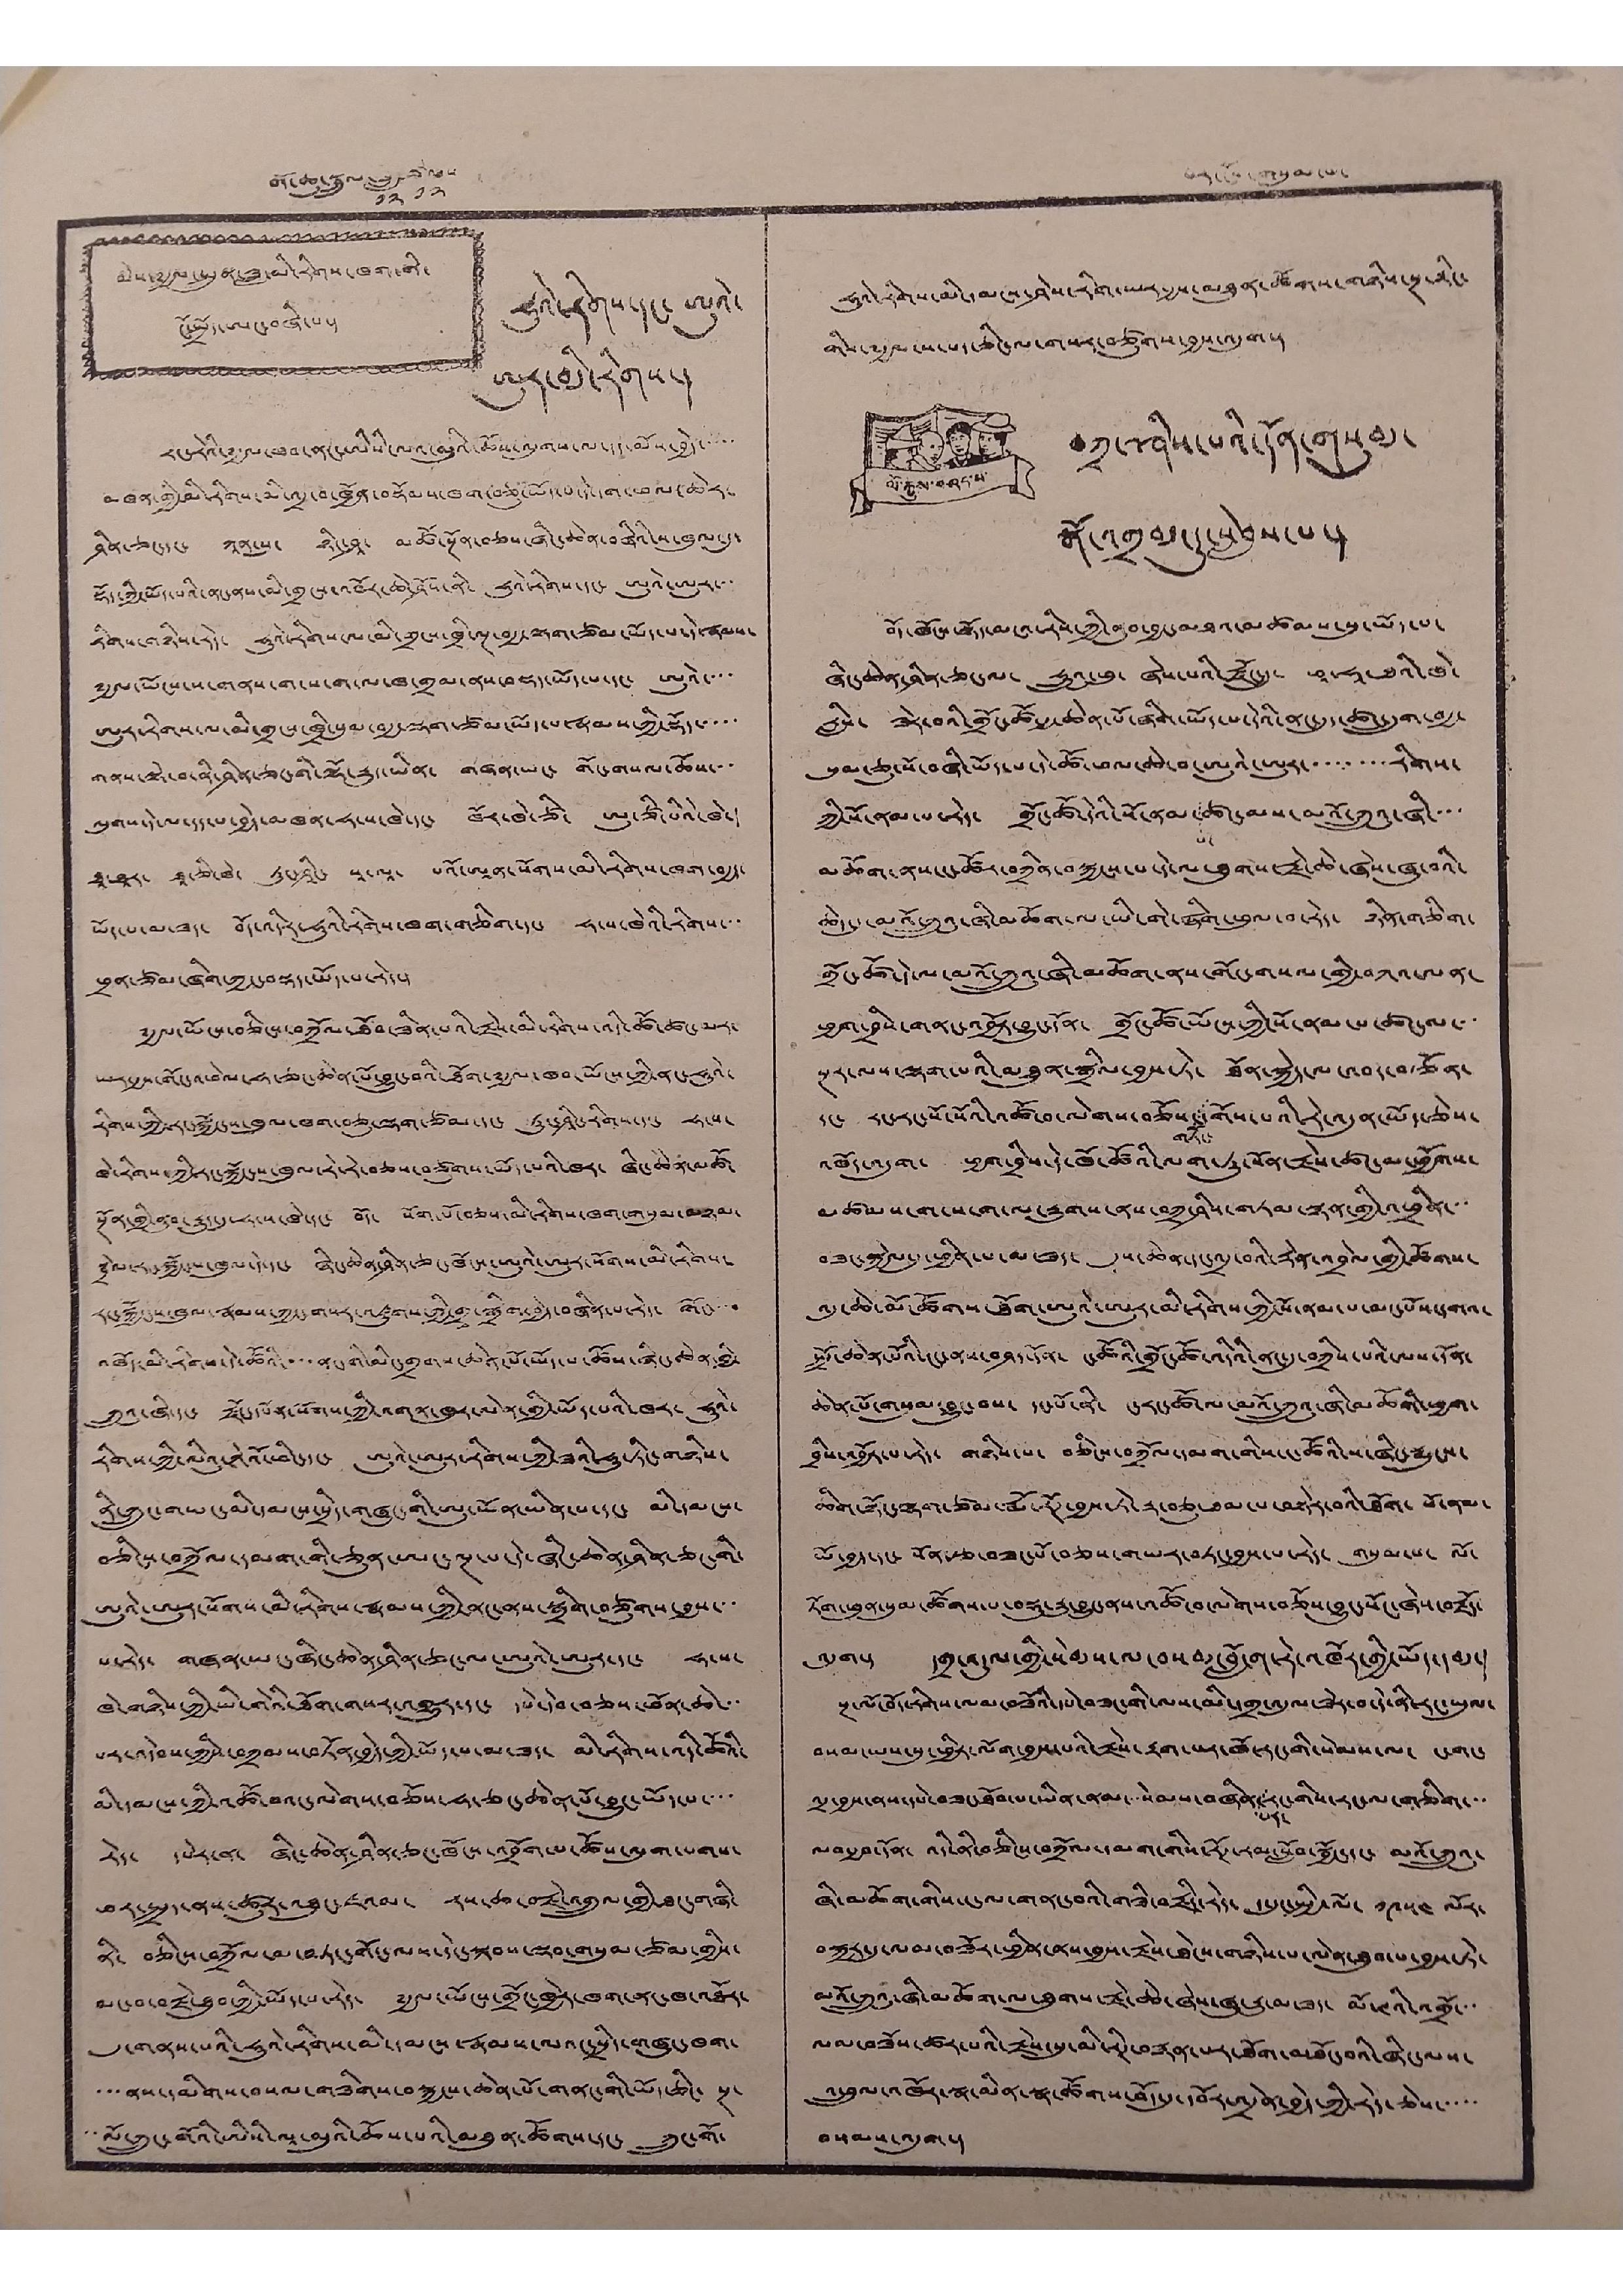བོད་ཆུ་སྦྲུལ་ཟླ་
༡༢
ཚེས་
༡༢
ལ་
པར་ངོས་གསུམ་པ་
མེས་༸རྒྱལ་སྤུན་ཟླ་མི་རིགས་ཁག་གི་
ངོ་སྤྲོད་ཨང་བཞི་པ།
ཧུའེ་རིགས་དང་ ཨུའེ་
ཨུར་མི་རིགས་།
རང་རེའི་༸རྒྱལ་ཁབ་ནང་ཨིསི་ལའ་མུའི་ཆོས་ལུགས་ལ་དད་མོས་བྱེད་་་་་
མཁན་གྱི་མི་རིགས་མི་འདྲ་བ་ཁྱོན་བསྡོམས་ཁག་བཅུ་ཡོད་པ་དེ་དག་ཕལ་ཆེར་
ཤིན་ཅང་དང་ ཀཱན་སུ་ ཉིང་ཤཱ་ མཚོ་སྔོན་བཅས་ཞིང་ཆེན་བཞིའི་ས་ཁུལ་དུ་
སྡོད་ཀྱི་ཡོད་པའི་ནང་ནས་མི་གྲངས་འཁོར་ཆེ་ཤོས་ནི་ ཧུའེ་རིགས་དང་ ཨུའེ་ཨུར་་
རིགས་གཉིས་རེད་ ཧུའེརིགས་ལ་མི་གྲངས་ཁྲི་ལྔ་བརྒྱ་ལྷག་ཙམ་ཡོད་པ་དེ་རྣམས་
༸རྒྱལ་ཡོངས་ས་གནས་ག་ས་ག་ལ་ཁ་གྲལ་ནས་བསྡད་ཡོད་པ་དང་ ཨུའེ་་་་
ཨུར་རིགས་ལ་མི་གྲངས་ཁྲི་སུམ་བརྒྱ་ལྷག་ཙམ་ཡོད་པ་རྣམས་ཀྱི་སྡོད་་་་་
གནས་ལྟེ་བ་ནི་ཤིན་ཅང་གི་ལྷོ་རྒྱུད་ཡིན་ གཞན་ཡང་ གོང་གསལ་ཆོས་་་
ལུགས་དེ་ལ་དད་པ་བྱེད་མཁན་ཧ་ས་ཁེ་དང་ ཁོར་ཁེ་ཙེ་ ཨུ་ཙི་པིའི་ཁེ་
ཐཱ་ཐཱར་ ཐཱ་ཅི་ཁེ་ ཏུང་ཤིང་ སཱ་ལཱ་ པའོ་ཨཱན་སོགས་མི་རིགས་ཁག་བརྒྱད་
ཡོད་པ་མ་ཟད་ བོད་འདིར་ཧུའི་རིགས་ཁག་གཅིག་དང་ ཧ་ས་ཁེའི་རིགས་་་
ཕྲན་ཙམ་ཞིག་ཀྱང་བསྡད་ཡོད་པ་རེད་།
༸རྒྱལ་ཡོངས་བཅིངས་བཀྲོལ་ཐོབ་ཟིན་པའི་རྗེས་མི་རིགས་འདི་ཚོ་ཚང་མར་
ཡར་རྒྱས་གོང་འཕེལ་ཧ་ཅང་ཆེན་པོ་བྱུང་བའི་ཐོག་༸རྒྱལ་ཁབ་ཡོངས་ཀྱི་ནང་ཧུའེ་
རིགས་ཀྱི་རང་སྐྱོངས་ཁུལ་ཁག་བཅུ་ལྷག་ཙམ་དང་ ཏུང་ཤིང་རིགས་དང་ ཧ་ས་
ཁེ་རིགས་ཀྱི་རང་སྐྱོང་ས་ཁུལ་རེ་རེ་བཅས་བཙུགས་ཡོད་པའི་ཁར་ ཞིང་ཆེན་མཚོ་
སྔོན་གྱི་ནུབ་རྒྱུད་དུ་ཧ་ས་ཁེ་དང་ བོད་ སོག་པོ་བཅས་མི་རིགས་ཁག་གསུམ་མཉམ་
སྦྲེལ་རང་སྐྱོང་ས་ཁུལ་དེ་དང་ ཞིང་ཆེན་ཤིན་ཅང་ཁོངས་ཨུའེ་ཨུར་སོགས་མི་རིགས་
རང་སྐྱོང་ས་ཁུལ་རྣམས་ཀྱང་གསར་འཛུགས་ཀྱི་གྲྭ་སྒྲིག་བྱེད་བཞིན་པ་རེད་ གོང་་་་
འཁོད་མི་རིགས་དེ་ཚོའི་་་ནང་གི་མིང་གྲགས་ཆེན་པོ་ཡོད་པ་ཚོས་ཞིང་ཆེན་གྱི་
ཀྲུའུ་ཞི་དང་ རྫོང་དཔོན་སོགས་ཀྱི་འགན་ཁུར་ལེན་གྱི་ཡོད་པའི་ཁར་ ཧུའེ་
རིགས་ཀྱི་ལིའུ་ཀེའོ་ཕིང་དང་ ཨུའེ་ཨུར་རིགས་ཀྱི་ཟའི་ཧུ་ཏིང་གཉིས་
ནི་ཀྲུང་གཡང་མི་དམངས་སྲིད་གཞུང་གི་ཨུ་ཡོན་ཡིན་པ་དང་ མི་དམངས་
བཅིངས་བཀྲོལ་དམག་གི་ཅུན་ཨང་ལྔ་པ་དེ་ཞིང་ཆེན་ཤིན་ཅང་གི་
ཨུའེ་ཨུར་སོགས་མི་རིགས་རྣམས་ཀྱི་ནང་ནས་སྒྲིག་བཙུགས་བྱས་་་
པ་རེད་། གཞན་ཡང་ཞིང་ཆེན་ཤིནན་ཅང་ལ་ཨུའེ་ཨུར་དང་ ཧ་ས་
ཁེ་གཉིས་ཀྱི་ཡི་གེའེ་ཐོག་གསར་འགྱུར་དང་ དཔེ་དེབ་བཅས་ཕོན་ཆེ་་་
པར་འདེབས་ཀྱིས་བཀྲམས་བཏོན་བྱེད་ཀྱི་ཡོད་པ་མ་ཟད་ མི་རིགས་འདི་ཚོའི་
མི་དམངས་ཀྱི་འཚོ་བའང་ལེགས་བཅོས་ཧ་ཅང་ཆེན་པོ་བྱུང་ཡོད་པ་་་་
རེད། དཔེར་ན་ ཞིང་ཆེན་ཤིན་ཅང་ཁོངས་འབྲོག་པ་ཚོས་ལུག་པགས་
ཕར་སྤྲད་ནས་ཚུར་འཐུང་ཇའམ་ རས་ཆ་བརྗེ་འགྲུལ་གྱི་ཐང་གཞི་
ནི་ བཅིངས་བཀྲོལ་མ་བཏང་གོང་ལས་དེང་སྐབས་ལྡབ་གསུམ་ཙམ་གྱིས་
མང་བ་བརྗེ་ཐུབ་ཀྱི་ཡོད་པ་རེད་ ༸རྒྱལ་ཡོངས་གྲོང་ཁྱེར་ཁག་ནང་ཁ་འཐོར་
དུ་གནས་པའི་ཧུའེ་རིགས་མི་དམངས་རྣམས་ལའང་སྲིད་གཞུང་ཁག་
་་་ནས་དམིགས་བསལ་གཟིགས་བསྐྱངས་ཆེན་པོ་གནང་གི་ཡོད་ཅིང་ སྔ་
་་ལོ་ཀྲུང་གོའི་ཨིསི་ལཱ་མུའི་ཆོས་པའི་མཐུན་ཚོགས་དང་ ཀྲུང་གོ་
ཧུའེ་རིགས་མི་དམངས་ཤེས་རིག་ཡར་རྒྱས་མཐུན་ཚོགས་གཉིས་སྔ་སྟིང་
གིས་༸རྒྱལ་ས་པད་ཅིང་ལ་གསར་བཙུགས་བྱས་འདུག།
ལོ་རྒྱུས་བཤད་པ་
བཀྲ་ཤིས་པའི་དོན་གསུམ་
སྒོ་འགྲམ་དུ་སླེབས་པ་།
བོད་ཁོངས་སྟོདམངའ་རིས་ཀྱི་ནུབ་བྱང་མཐའ་མཚམས་སུ་ཡོད་པ་
ཞིང་ཆེན་ཤིན་ཅང་ལ་ ཧྲུའུ་ཕུ་ ཞེས་པའི་རྫོང་དུ་ ཕཱ་ཧཱ་ཐའི་ཁེ་
རླིས་ ཟེར་བའི་གྲོང་ཚོ་རྒྱ་ཆེན་པོ་ཞིག་ཡོད་པ་དེའི་ནང་དུ་ཚང་དྲུག་བརྒྱ་
སུམ་ཅུ་སོ་བཞི་ཡོད་པ་དེ་ཚོ་ཕལ་ཆེ་བ་ཨུའེ་ཨུར་་་་་་་་རིགས་
ཀྱི་སོ་ནམ་པ་རེད་ གྲོང་ཚོ་དེའི་སོ་ནམ་
པ་
ཚང་མས་མའོ་ཀྲུའུ་ཞི་་་་
མཆོག་ནས་ངང་ཚོར་བཀྲིན་བསྐྱངས་པ་དེ་ལ་ཐུགས་རྗེ་ཆེ་ཞེས་ཞུ་བའི་
ཆེད་དུ་མའོ་ཀྲུའུ་ཞི་མཆོག་ལ་ཡི་གེ་ཞིག་ཕུལ་བ་རེད་ ཉིན་གཅིག་
གྲོང་ཚོ་དེ་ལ་མའོ་ཀྲུའུ་ཞི་མཆོག་ནས་གོང་གསལ་གྱི་བཀའ་ལན་
ཕྱག་བྲིས་གནང་འབྱོར་བྱུང་དོན་ གྲོང་ཚོ་ཡོངས་ཀྱི་སོ་ནམ་པ་ཚང་མ་་་
སྔར་ལས་ལྷག་པའི་མཐུན་སྒྲིལ་བྱས་ཏེ་ ཐོན་སྐྱེད་ལ་འབད་བརྩོན་
དང་ རང་རང་སོ་སོའི་འཚོ་བ་ལེགས་བཅོས་ གཏོང་ དགོས་པའི་རེ་འདུན་ཡོད་ཅེས་
འཁོད་འདུག་ ཕྱག་བྲིས་དེ་ཁོ་ཚོའི་ལག་ཏུ་སོན་རྗེས་ཚང་མ་ཕྱོགས་
མཚམས་ག་ས་ག་ལ་རྒྱུགས་ནས་བཀྲ་ཤིས་གཏམ་སྙན་གྱི་འཕྲིན་་་
བཟང་སྐྱེལ་དུ་ཕྱིན་པ་མ་ཟད་ དུས་ཆེན་དང་འདྲ་བའི་རྟེན་འབྲེལ་གྱི་ཚོགས་
འདུ་ཆེ་མོ་ཚོགས་ཐོག་ཨུའེ་ཨུར་མི་རིགས་ཀྱི་སོ་ནམ་པ་མང་པོས་དགའ་
སྤྲོ་ཆེན་པོའི་ངང་ནས་བཤད་དོན་ ང་ཚོའི་གྲོང་ཚོ་འདིའི་ནང་དུ་བཀྲིས་པའི་ལས་དོན་
ཆེན་པོ་གསུམ་བྱུང་བས་ དང་པོ་ནི་ ང་རང་ཚོ་ལ་མའོ་ཀྲུའུ་ཞི་མཆོགི་ཕྱག་
བྲིས་འབྱོར་པ་རེད་ གཉིས་པ་ བཅིང་བཀྲོལ་དམག་གིས་ང་ཚོའི་ས་ཞིང་རྨུངས་
ཆིག་སྟོང་ལྷག་ཙམ་རྨོ་རོཊ་བྱས་ཏེ་རྟ་བཅུ་ཐམ་པ་བསྟེར་བའི་ཐོག་ སོ་ནམ་
ཡོ་བྱད་དང་ སོན་རྩ་བཟང་པོ་བཅས་གཡར་བཏང་བྱས་པ་རེད་ གསུམ་པ་ ལོ་
ཏོག་ཕུན་སུམ་ཚོགས་པ་བསྡུ་རྒྱུ་བྱུང་ནས་འཚོ་བ་ལེགས་བཅོས་བྱུང་སོང་ཞེས་བརྗོད་
འདུག། དགྲ་འདུལ་གྱི་སེམས་ལ་བསམ་བློ་ག་རེ་འཁོར་གྱི་ཡོད་དམ་
སྔ་ལོ་བོད་རིགས་ལམ་བཟོའི་དཔེ་བཟང་གི་ལས་མི་དགྲ་འདུལ་ཟེར་བ་དེ་ནི་རང་ཡུལ་
བསམ་ཡས་སུ་ཕྱིར་ལོག་བྱས་པའི་རྗེས་རྟག་པར་ཁོ་རང་གི་སེམས་ལ་ ང་གང་
འདྲ་བྱས་ནས་དཔེ་བཟང་ཐོབ་པ་ཡིན་ནམ་་སེམས་བཞིན་
པར་
རང་གིས་རང་ལ་གཅིག་་་
ལབ་རྒྱབ་དོན་ འདི་ནི་བཅིངས་བཀྲོལ་དམག་གིས་རོཊ་རམ་སློབ་སྦྱོང་དག་ མའོ་ཀྲུའུ་
ཞི་མཆོག་གིས་ང་ལ་གནང་བའི་གཟི་བརྗིད་རེད་ ད་དུང་སྤྱི་ལོ་ ༡༩༥༤ ལོར་
བསྐྱར་དུ་ལམ་བཟོར་ཕྱིན་ནས་བྱས་རྗེས་ཐེངས་གཉིས་པ་ལེན་ཐུབ་པ་བྱས་ཏེ་
མོའོ་ཀྲུའུ་ཞི་མཆོག་ལ་ཐུགས་རྗེ་ཆེ་ཞེས་ཞུ་རྒྱུ་མ་ཟད་ མོ་ཊའི་འགྲོ་་་
ལམ་བཟོས་ཚར་པའི་རྗེས་སུ་མི་རིཊ་བརྙན་པར་ཐོག་མཐོང་བའི་ཞིང་ལས་
འཕྲུལ་འཁོར་སྣ་མིན་སྣ་ཚོགས་བོད་དུ་དབོར་འདྲེན་བྱེད་ཀྱི་རེད་ཅེས་་་་་
བསམས་འདུག་།
